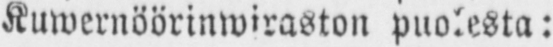Kuwernöörinwiraston puolesta:
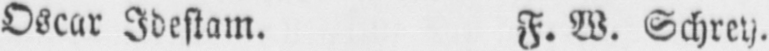Oscar Idestam. F. W. Schrey.
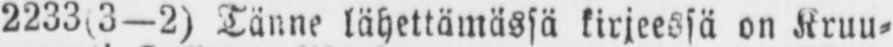2233(3—2) Tänne lähettämässä kirjeessä on Kruu-
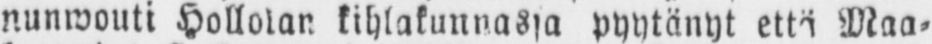nunwouti Hollolan kihlakunnasta pyytänyt että Maa-
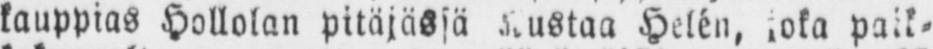kauppias Hollolan pitäjässä Kustaa Helén, joka paik-
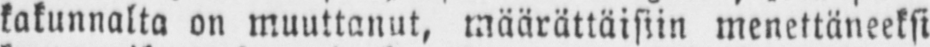kakunnalta on muuttanut, määrättäisiin menettäneeksi
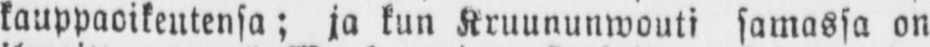kauppaoikeutensa; ja kun Kruununwouti samassa on
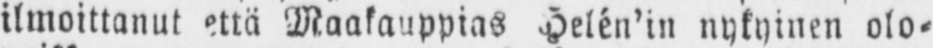ilmoittanut että Maakauppias Helén’in nykyinen olo-
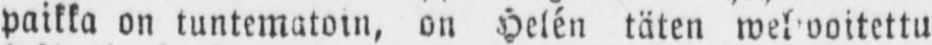paikka on tuntematoin, on Helén täten welwoitettu
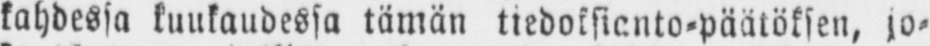kahdessa kuukaudessa tämän tiedoksianto-päätöksen, jo-
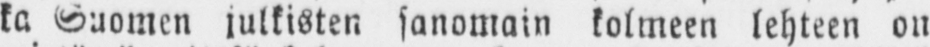ka Suomen julkisten sanomain kolmeen lehteen on
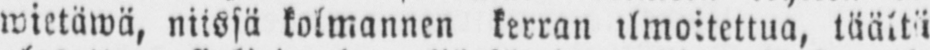wietäwä, niissä kolmannen kerran ilmoitettua, täältä
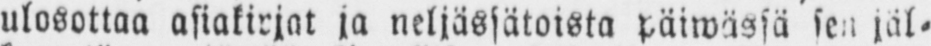ulosottoa asiakirjat ja neljässätoista päiwässä sen jäl-
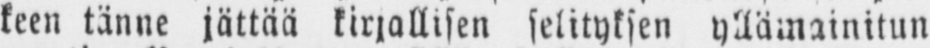keen tänne jättää kirjallisen selityksen yllämainitun
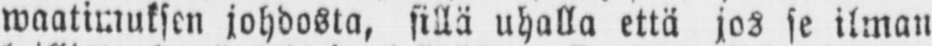waatimuksen johdosta, sillä uhalla että jos se ilman
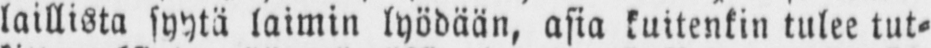laillista syytä laimin lyödään, asia kuitenkin tulee tut-
